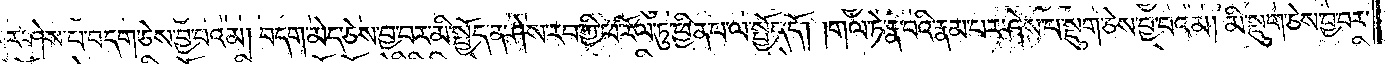པར་ཤེས་པ་བདག་ཅེས་བྱ་བའམ། བདག་མེད་ཅེས་བྱ་བར་མི་སྤྱོད་ན་ཤེས་རབ་ཀྱི་ཕ་རོལ་ཏུ་ཕྱིན་པ་ལ་སྤྱོད་དོ། །གལ་ཏེ་རྣ་བའི་རྣམ་པར་ཤེས་པ་སྡུག་ཅེས་བྱ་བའམ། མི་སྡུག་ཅེས་བྱ་བར་
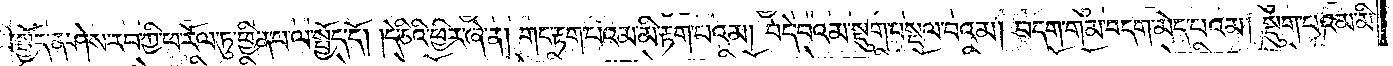མི་སྤྱོད་ན་ཤེས་རབ་ཀྱི་ཕ་རོལ་ཏུ་ཕྱིན་པ་ལ་སྤྱོད་དོ། །དེ་ཅིའི་ཕྱིར་ཞེ་ན། གང་རྟག་པའམ་མི་རྟག་པའམ། བདེ་བའམ་སྡུག་བསྔལ་བའམ། བདག་གམ་བདག་མེད་པའམ། སྡུག་པའམ་མི་
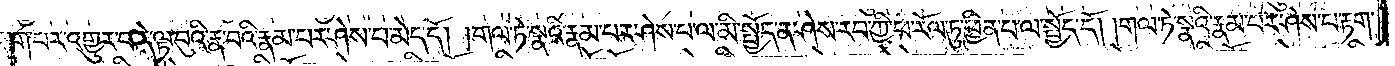སྡུག་པར་འགྱུར་བ་དེ་ལྟ་བུའི་རྣ་བའི་རྣམ་པར་ཤེས་པ་མེད་དོ། །གལ་ཏེ་སྣའི་རྣམ་པར་ཤེས་པ་ལ་མི་སྤྱོད་ན་ཤེས་རབ་ཀྱི་ཕ་རོལ་ཏུ་ཕྱིན་པ་ལ་སྤྱོད་དོ། །གལ་ཏེ་སྣའི་རྣམ་པར་ཤེས་པ་རྟག་
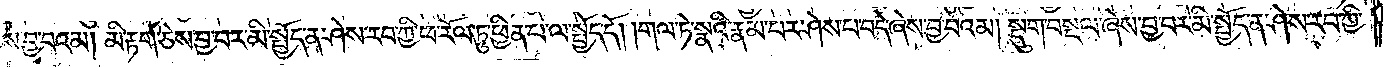ས་བྱ་བའམ། མི་རྟག་ཅེས་བྱ་བར་མི་སྤྱོད་ན་ཤེས་རབ་ཀྱི་ཕ་རོལ་ཏུ་ཕྱིན་པ་ལ་སྤྱོད་དོ། །གལ་ཏེ་སྣའི་རྣམ་པར་ཤེས་པ་བདེ་ཞེས་བྱ་བའམ། སྡུག་བསྔལ་ཞེས་བྱ་བར་མི་སྤྱོད་ན་ཤེས་རབ་ཀྱི་
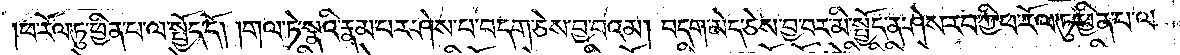ཕ་རོལ་ཏུ་ཕྱིན་པ་ལ་སྤྱོད་དོ། །གལ་ཏེ་སྣའི་རྣམ་པར་ཤེས་པ་བདག་ཅེས་བྱ་བའམ། བདག་མེད་ཅེས་བྱ་བར་མི་སྤྱོད་ན་ཤེས་རབ་ཀྱི་ཕ་རོལ་ཏུ་ཕྱིན་པ་ལ་
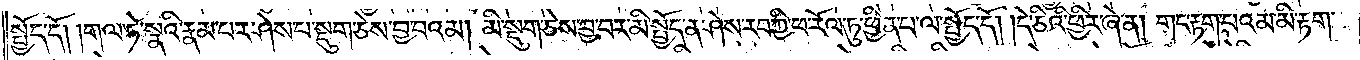སྤྱོད་དོ། །གལ་ཏེ་སྣའི་རྣམ་པར་ཤེས་པ་སྡུག་ཅེས་བྱ་བའམ། མི་སྡུག་ཅེས་བྱ་བར་མི་སྤྱོད་ན་ཤེས་རབ་ཀྱི་ཕ་རོལ་ཏུ་ཕྱིན་པ་ལ་སྤྱོད་དོ། །དེ་ཅིའི་ཕྱིར་ཞེ་ན། གང་རྟག་པའམ་མི་རྟག་
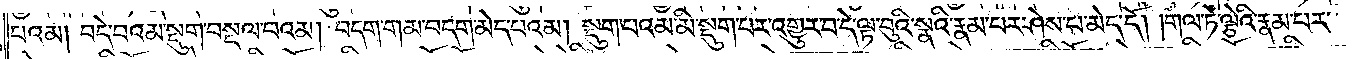པའམ། བདེ་བའམ་སྡུག་བསྔལ་བའམ། བདག་གམ་བདག་མེད་པའམ། སྡུག་པའམ་མི་སྡུག་པར་འགྱུར་བ་དེ་ལྟ་བུའི་སྣའི་རྣམ་པར་ཤེས་པ་མེད་དོ། །གལ་ཏེ་ལྕེའི་རྣམ་པར་
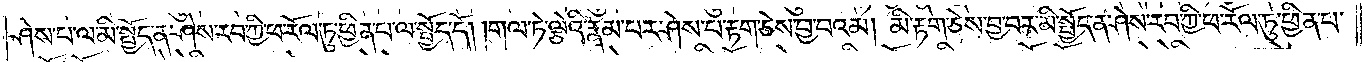ཤེས་པ་ལ་མི་སྤྱོད་ན་ཤེས་རབ་ཀྱི་ཕ་རོལ་ཏུ་ཕྱིན་པ་ལ་སྤྱོད་དོ། །གལ་ཏེ་ལྕེའི་རྣམ་པར་ཤེས་པ་རྟག་ཅེས་བྱ་བའམ། མི་རྟག་ཅེས་བྱ་བར་མི་སྤྱོད་ན་ཤེས་རབ་ཀྱི་ཕ་རོལ་ཏུ་ཕྱིན་པ་
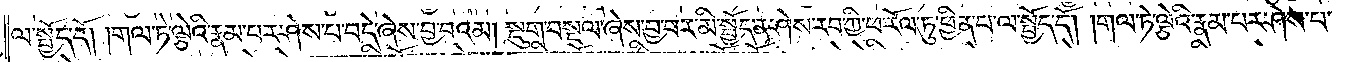ལ་སྤྱོད་དོ། །གལ་ཏེ་ལྕེའི་རྣམ་པར་ཤེས་པ་བདེ་ཞེས་བྱ་བའམ། སྡུག་བསྔལ་ཞེས་བྱ་བར་མི་སྤྱོད་ན་ཤེས་རབ་ཀྱི་ཕ་རོལ་ཏུ་ཕྱིན་པ་ལ་སྤྱོད་དོ། །གལ་ཏེ་ལྕེའི་རྣམ་པར་ཤེས་པ་
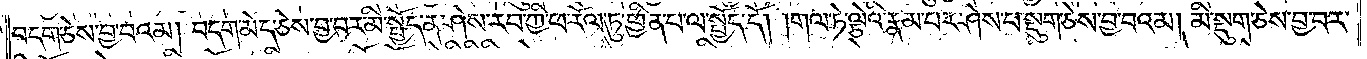བདག་ཅེས་བྱ་བའམ། བདག་མེད་ཅེས་བྱ་བར་མི་སྤྱོད་ན་ཤེས་རབ་ཀྱི་ཕ་རོལ་ཏུ་ཕྱིན་པ་ལ་སྤྱོད་དོ། །གལ་ཏེ་ལྕེའི་རྣམ་པར་ཤེས་པ་སྡུག་ཅེས་བྱ་བའམ། མི་སྡུག་ཅེས་བྱ་བར་
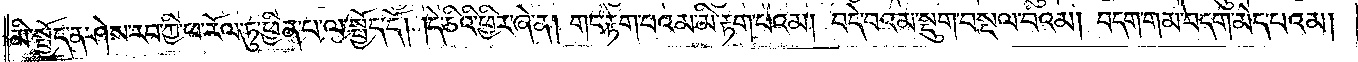མི་སྤྱོད་ན་ཤེས་རབ་ཀྱི་ཕ་རོལ་ཏུ་ཕྱིན་པ་ལ་སྤྱོད་དོ། །དེ་ཅིའི་ཕྱིར་ཞེ་ན། གང་རྟག་པའམ་མི་རྟག་པའམ། བདེ་བའམ་སྡུག་བསྔལ་བའམ། བདག་གམ་བདག་མེད་པའམ།
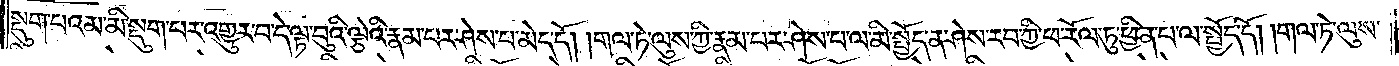སྡུག་པའམ་མི་སྡུག་པར་འགྱུར་བ་དེ་ལྟ་བུའི་ལྕེའི་རྣམ་པར་ཤེས་པ་མེད་དོ། །གལ་ཏེ་ལུས་ཀྱི་རྣམ་པར་ཤེས་པ་ལ་མི་སྤྱོད་ན་ཤེས་རབ་ཀྱི་ཕ་རོལ་ཏུ་ཕྱིན་པ་ལ་སྤྱོད་དོ། །གལ་ཏེ་ལུས་
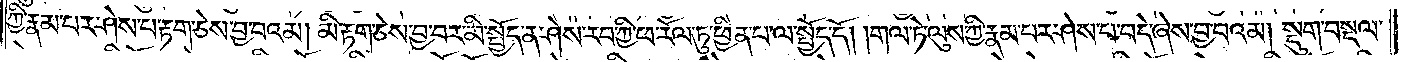ཀྱི་རྣམ་པར་ཤེས་པ་རྟག་ཅེས་བྱ་བའམ། མི་རྟག་ཅེས་བྱ་བར་མི་སྤྱོད་ན་ཤེས་རབ་ཀྱི་ཕ་རོལ་ཏུ་ཕྱིན་པ་ལ་སྤྱོད་དོ། །གལ་ཏེ་ལུས་ཀྱི་རྣམ་པར་ཤེས་པ་བདེ་ཞེས་བྱ་བའམ། སྡུག་བསྔལ་
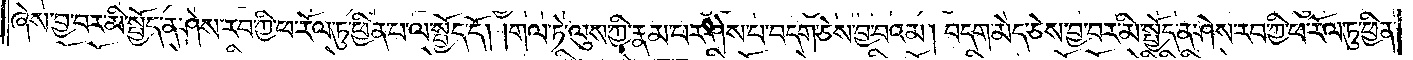ཞེས་བྱ་བར་མི་སྤྱོད་ན་ཤེས་རབ་ཀྱི་ཕ་རོལ་ཏུ་ཕྱིན་པ་ལ་སྤྱོད་དོ། །གལ་ཏེ་ལུས་ཀྱི་རྣམ་པར་ཤེས་པ་བདག་ཅེས་བྱ་བའམ། བདག་མེད་ཅེས་བྱ་བར་མི་སྤྱོད་ན་ཤེས་རབ་ཀྱི་ཕ་རོལ་ཏུ་ཕྱིན་
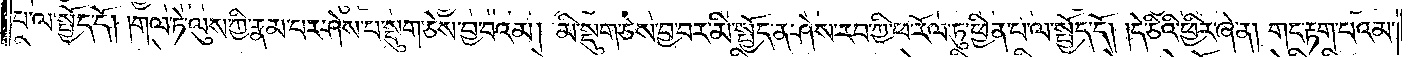པ་ལ་སྤྱོད་དོ། །གལ་ཏེ་ལུས་ཀྱི་རྣམ་པར་ཤེས་པ་སྡུག་ཅེས་བྱ་བའམ། མི་སྡུག་ཅེས་བྱ་བར་མི་སྤྱོད་ན་ཤེས་རབ་ཀྱི་ཕ་རོལ་ཏུ་ཕྱིན་པ་ལ་སྤྱོད་དོ། །དེ་ཅིའི་ཕྱིར་ཞེ་ན། གང་རྟག་པའམ་
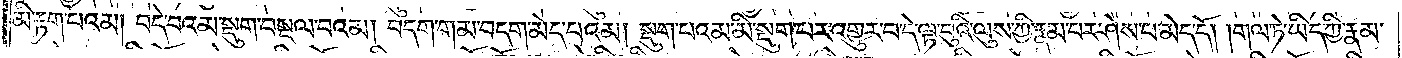མི་རྟག་པའམ། བདེ་བའམ་སྡུག་བསྔལ་བའམ། བདག་གམ་བདག་མེད་པའམ། སྡུག་པའམ་མི་སྡུག་པར་འགྱུར་བ་དེ་ལྟ་བུའི་ལུས་ཀྱི་རྣམ་པར་ཤེས་པ་མེད་དོ། །གལ་ཏེ་ཡིད་ཀྱི་རྣམ་
